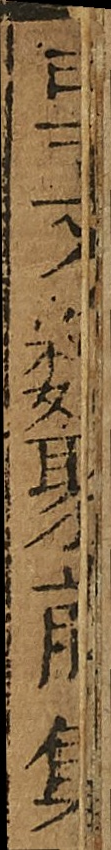事文類聚前集
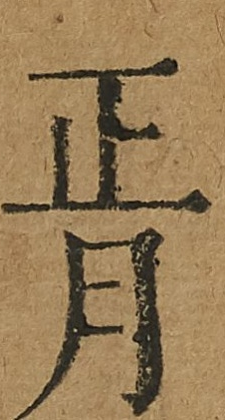正月
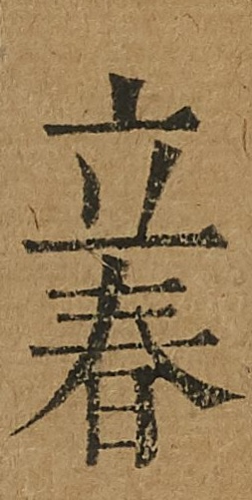立春
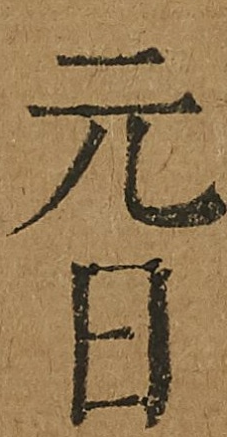元日
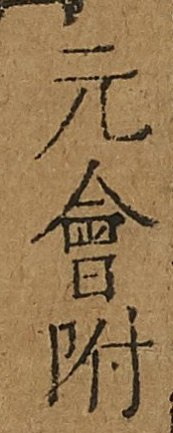元會附
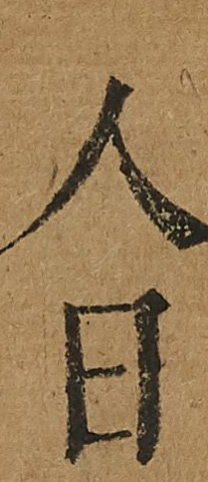人日
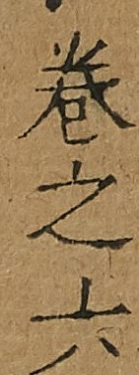卷之六
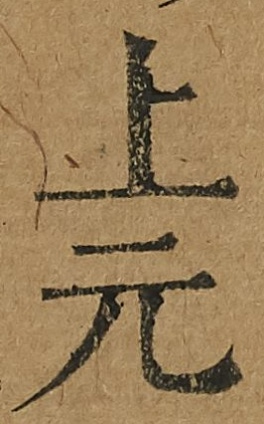上元
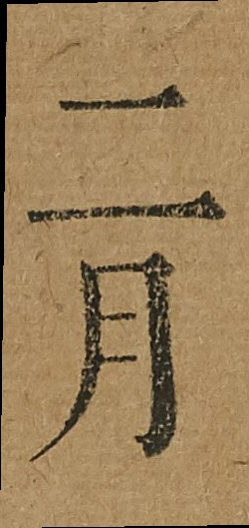二月
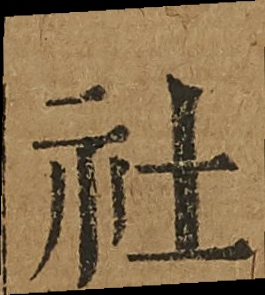社
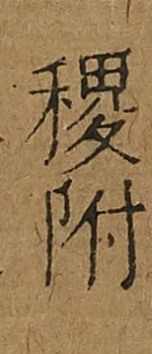稷附
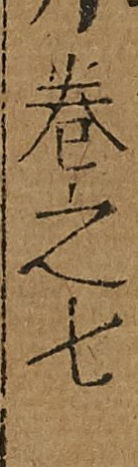卷之七
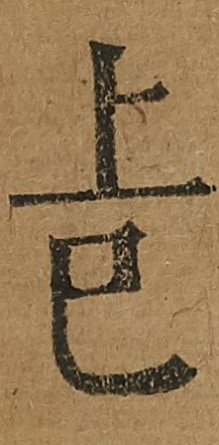上巳
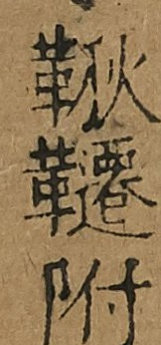鞦韆附
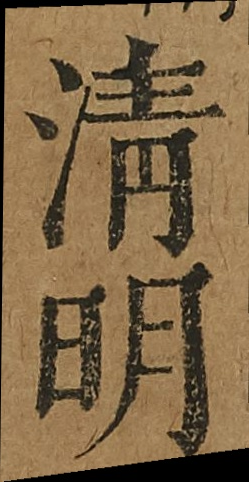清明
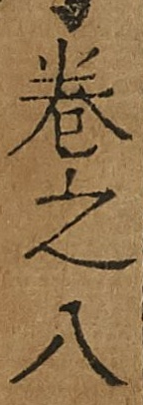卷之八
